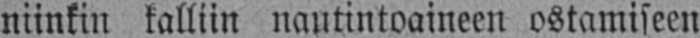niinkin kalliin nautintoaineen ostamiseen
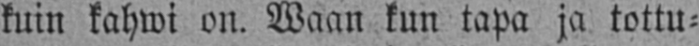kuin kahwi on. Waan kun tapa ja tottu-
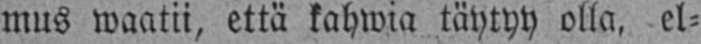mus waatii, että kahwia täytyy olla, el-
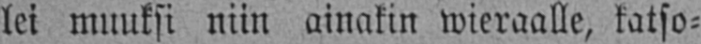lei muuksi niin ainakin wieraalle, katso-
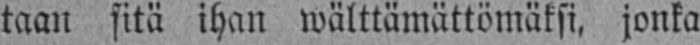taan sitä ihan wälttämättömäksi, jonka
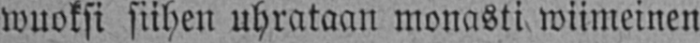wuoksi siihen uhrataan monasti wiimeinen
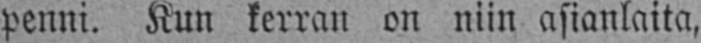penni. Kun kerran on niin asianlaita,
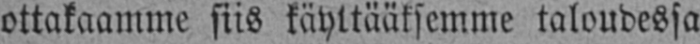ottakaamme siis käyttääksemme taloudessa
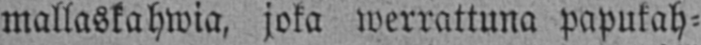mallaskahwia, joka werrattuna papukah-
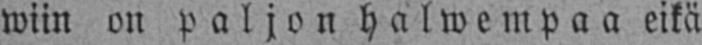wiin on paljon halwempaa eikä
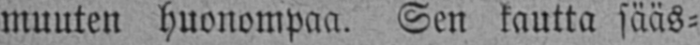muuten huonompaa. Sen kautta sääs-
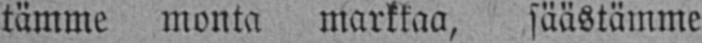tämme monta markkaa, säästämme
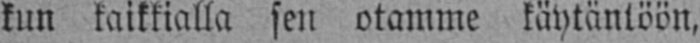kun kaikkialla sen otamme käytäntöön,
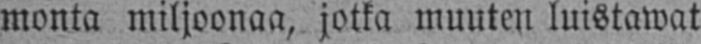monta miljoonaa, jotka muuten luistawat
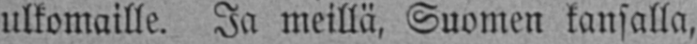ulkomaille. Ja meillä, Suomen kansalla,
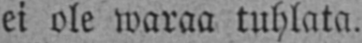ei ole waraa tuhlata.
